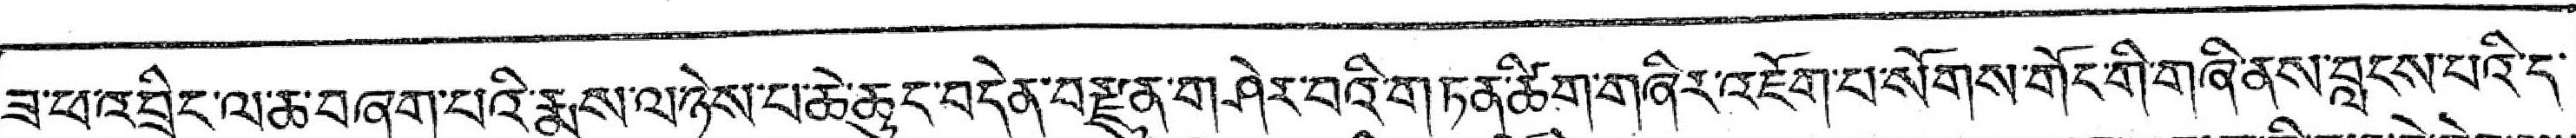ཟ་ཕ་འབྲིང་ལ་ཆ་བཞག་པའི་རྨས་ལ་ཉེས་པ་ཆེ་ཆུང་བདེན་བརྫུན་གཤེར་བའི་གཏན་ཚིག་གཞིར་འཇོག་པ་སོགས་གོང་གི་གཞི་ནས་བླངས་པའི་ད་
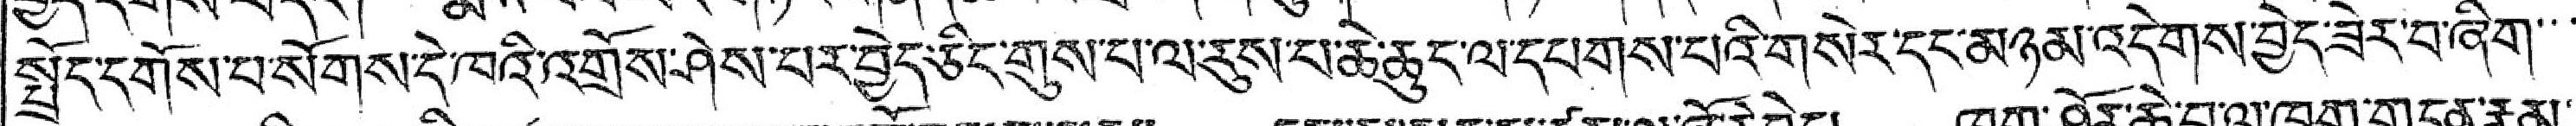སྤྲོད་དགོས་པ་སོགས་དེ་ཁའི་འགྲོས་ཤེས་པར་བྱེད་ཅིང་གུས་པ་ལ་རུས་པ་ཆེ་ཆུང་ལ་དཔགས་པའི་གསེར་དང་མཉམ་འདེགས་བྱེད་ཟེར་བ་ཞིག་་་
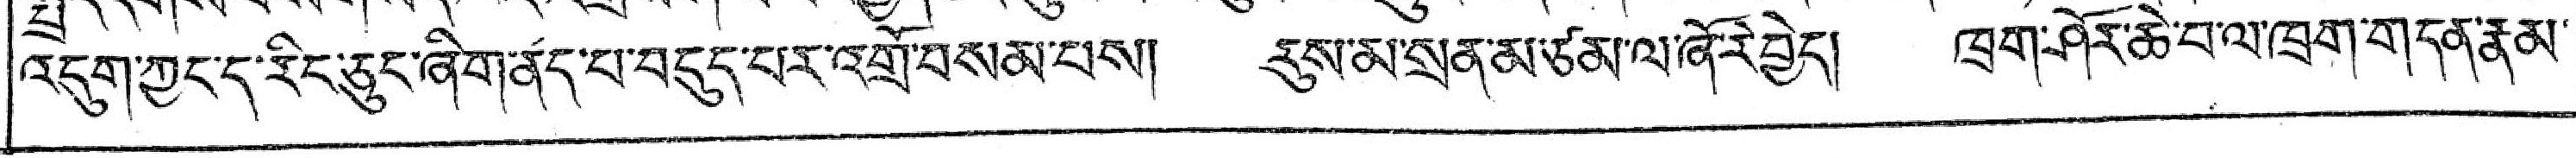འདུག་ཀྱང་ད་རིང་ཅུང་ཞིག་ནད་པ་བདུད་པར་འགྲོ་བསམ་པས། རུས་མ་སྲན་མ་ཙམ་ལ་ཞོ་རེ་བྱེད། ཁྲག་ཤོར་ཆེ་བ་ལ་ཁྲག་གདན་རྣམ་
